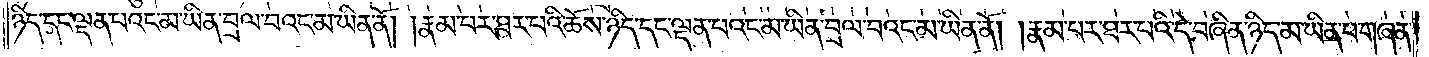ཉིད་དང་ལྡན་པའང་མ་ཡིན་བྲལ་བའང་མ་ཡིན་ནོ། །རྣམ་པར་ཐར་པའི་ཆོས་ཉིད་དང་ལྡན་པའང་མ་ཡིན་བྲལ་བའང་མ་ཡིན་ནོ། །རྣམ་པར་ཐར་པའི་དེ་བཞིན་ཉིད་མ་ཡིན་པ་གཞན་
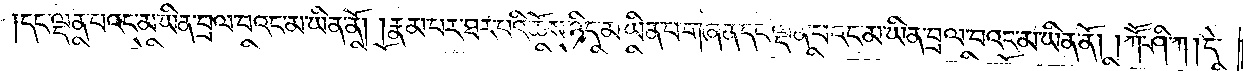དང་ལྡན་པའང་མ་ཡིན་བྲལ་བའང་མ་ཡིན་ནོ། །རྣམ་པར་ཐར་པའི་ཆོས་ཉིད་མ་ཡིན་པ་གཞན་དང་ལྡན་པའང་མ་ཡིན་བྲལ་བའང་མ་ཡིན་ནོ། །ཀཽ་ཤི་ཀ །དེ་
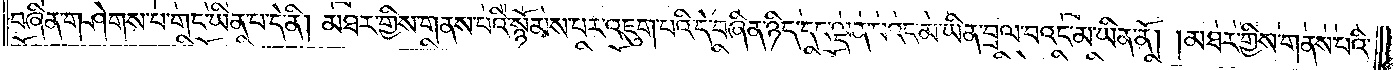བཞིན་གཤེགས་པ་གང་ཡིན་པ་དེ་ནི། མཐར་གྱིས་གནས་པའི་སྙོམས་པར་འཇུག་པའི་དེ་བཞིན་ཉིད་དང་ལྡན་པའང་མ་ཡིན་བྲལ་བའང་མ་ཡིན་ནོ། །མཐར་གྱིས་གནས་པའི་
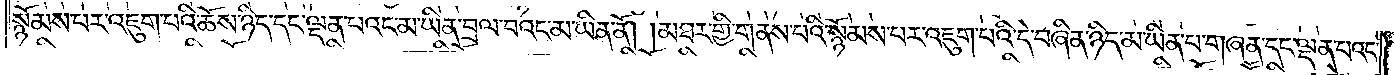སྙོམས་པར་འཇུག་པའི་ཆོས་ཉིད་དང་ལྡན་པའང་མ་ཡིན་བྲལ་བའང་མ་ཡིན་ནོ། །མཐར་གྱིས་གནས་པའི་སྙོམས་པར་འཇུག་པའི་དེ་བཞིན་ཉིད་མ་ཡིན་པ་གཞན་དང་ལྡན་པའང་
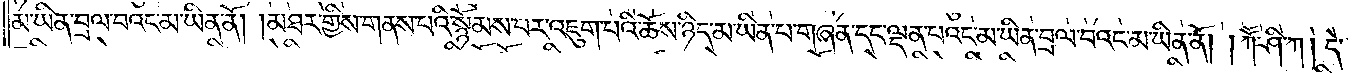མ་ཡིན་བྲལ་བའང་མ་ཡིན་ནོ། །མཐར་གྱིས་གནས་པའི་སྙོམས་པར་འཇུག་པའི་ཆོས་ཉིད་མ་ཡིན་པ་གཞན་དང་ལྡན་པའང་མ་ཡིན་བྲལ་བའང་མ་ཡིན་ནོ། །ཀཽ་ཤི་ཀ །དེ་
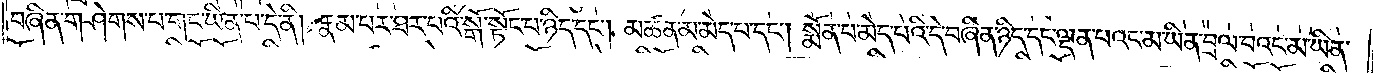བཞིན་གཤེགས་པ་གང་ཡིན་པ་དེ་ནི། རྣམ་པར་ཐར་པའི་སྒོ་སྟོང་པ་ཉིད་དང༌། མཚན་མ་མེད་པ་དང༌། སྨོན་པ་མེད་པའི་དེ་བཞིན་ཉིད་དང་ལྡན་པའང་མ་ཡིན་བྲལ་བའང་མ་ཡིན་
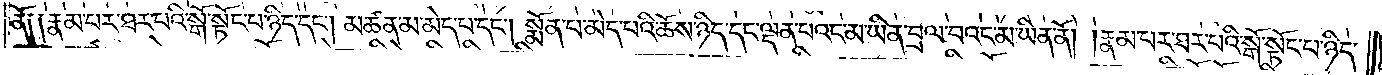ནོ། །རྣམ་པར་ཐར་པའི་སྒོ་སྟོང་པ་ཉིད་དང༌། མཚན་མ་མེད་པ་དང༌། སྨོན་པ་མེད་པའི་ཆོས་ཉིད་དང་ལྡན་པའང་མ་ཡིན་བྲལ་བའང་མ་ཡིན་ནོ། །རྣམ་པར་ཐར་པའི་སྒོ་སྟོང་པ་ཉིད་
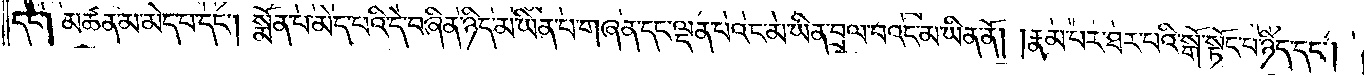དང༌། མཚན་མ་མེད་པ་དང༌། སྨོན་པ་མེད་པའི་དེ་བཞིན་ཉིད་མ་ཡིན་པ་གཞན་དང་ལྡན་པའང་མ་ཡིན་བྲལ་བའང་མ་ཡིན་ནོ། །རྣམ་པར་ཐར་པའི་སྒོ་སྟོང་པ་ཉིད་དང༌།
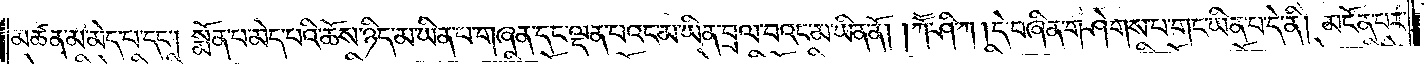མཚན་མ་མེད་པ་དང༌། སྨོན་པ་མེད་པའི་ཆོས་ཉིད་མ་ཡིན་པ་གཞན་དང་ལྡན་པའང་མ་ཡིན་བྲལ་བའང་མ་ཡིན་ནོ། །ཀཽ་ཤི་ཀ །དེ་བཞིན་གཤེགས་པ་གང་ཡིན་པ་དེ་ནི། མངོན་པར་
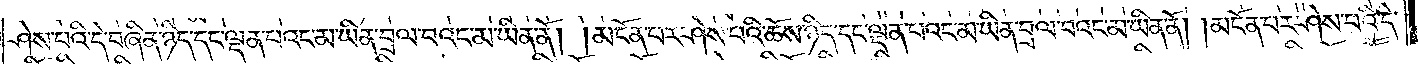ཤེས་པའི་དེ་བཞིན་ཉིད་དང་ལྡན་པའང་མ་ཡིན་བྲལ་བའང་མ་ཡིན་ནོ། །མངོན་པར་ཤེས་པའི་ཆོས་ཉིད་དང་ལྡན་པའང་མ་ཡིན་བྲལ་བའང་མ་ཡིན་ནོ། །མངོན་པར་ཤེས་པའི་དེ་
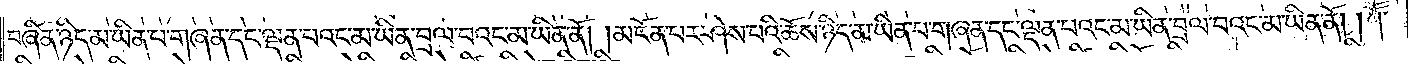བཞིན་ཉིད་མ་ཡིན་པ་གཞན་དང་ལྡན་པའང་མ་ཡིན་བྲལ་བའང་མ་ཡིན་ནོ། །མངོན་པར་ཤེས་པའི་ཆོས་ཉིད་མ་ཡིན་པ་གཞན་དང་ལྡན་པའང་མ་ཡིན་བྲལ་བའང་མ་ཡིན་ནོ། །ཀཽ་
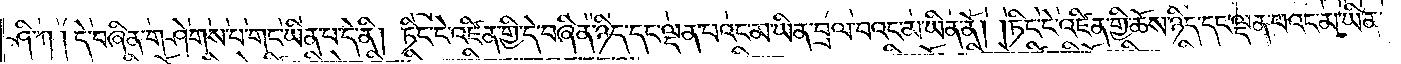ཤི་ཀ །དེ་བཞིན་གཤེགས་པ་གང་ཡིན་པ་དེ་ནི། ཏིང་ངེ་འཛིན་གྱི་དེ་བཞིན་ཉིད་དང་ལྡན་པའང་མ་ཡིན་བྲལ་བའང་མ་ཡིན་ནོ། །ཏིང་ངེ་འཛིན་གྱི་ཆོས་ཉིད་དང་ལྡན་པའང་མ་ཡིན་
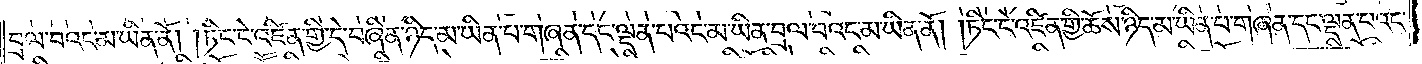བྲལ་བའང་མ་ཡིན་ནོ། །ཏིང་ངེ་འཛིན་གྱི་དེ་བཞིན་ཉིད་མ་ཡིན་པ་གཞན་དང་ལྡན་པའང་མ་ཡིན་བྲལ་བའང་མ་ཡིན་ནོ། །ཏིང་ངེ་འཛིན་གྱི་ཆོས་ཉིད་མ་ཡིན་པ་གཞན་དང་ལྡན་པའང་
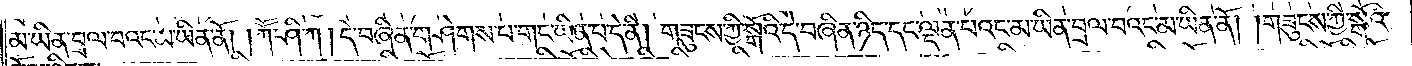མ་ཡིན་བྲལ་བའང་མ་ཡིན་ནོ། །ཀཽ་ཤི་ཀ། དེ་བཞིན་གཤེགས་པ་གང་ཡིན་པ་དེ་ནི། གཟུངས་ཀྱི་སྒོའི་དེ་བཞིན་ཉིད་དང་ལྡན་པའང་མ་ཡིན་བྲལ་བའང་མ་ཡིན་ནོ། །གཟུངས་ཀྱི་སྒོའི་
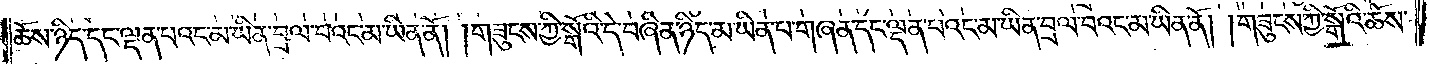ཆོས་ཉིད་དང་ལྡན་པའང་མ་ཡིན་བྲལ་བའང་མ་ཡིན་ནོ། །གཟུངས་ཀྱི་སྒོའི་དེ་བཞིན་ཉིད་མ་ཡིན་པ་གཞན་དང་ལྡན་པའང་མ་ཡིན་བྲལ་བའང་མ་ཡིན་ནོ། །གཟུངས་ཀྱི་སྒོའི་ཆོས་
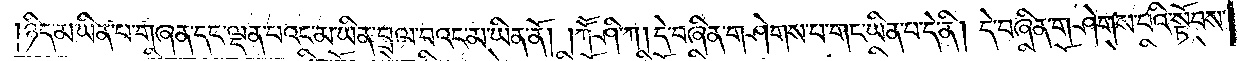ཉིད་མ་ཡིན་པ་གཞན་དང་ལྡན་པའང་མ་ཡིན་བྲལ་བའང་མ་ཡིན་ནོ། །ཀཽ་ཤི་ཀ། དེ་བཞིན་གཤེགས་པ་གང་ཡིན་པ་དེ་ནི། དེ་བཞིན་གཤེགས་པའི་སྟོབས་
